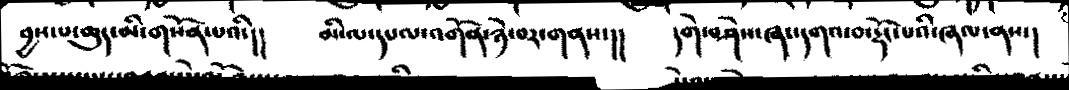བྱས་པ་ཆུད་མི་གསོན་པའི་།།  མི་ལ་དཔལ་འདོན་ཉེ་བར་གནས་།།   དགེ་བཤེས་ཞང་དགའ་བ་རྡོང་པའི་ཞལ་ནས་།
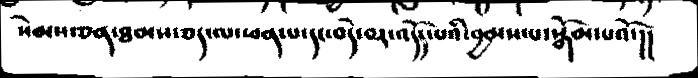སེམས་ཅན་ཐམས་ཅད་ལ་ཕན་པ་དང་བདེ་བར་འདོད་པའི་བྱམས་པ་སྒོམ་པའོ་།།
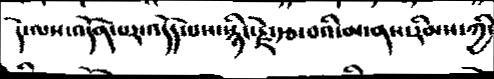དེ་ལས་འདོན་པར་འདོད་པས་སྙིང་རྗེ་རྩ་བའི་མ་ནས་རིམས་ཀྱི་
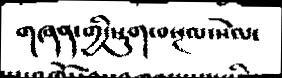གཞན་གྱི་སྡུག་བསྔལ་སེལ་
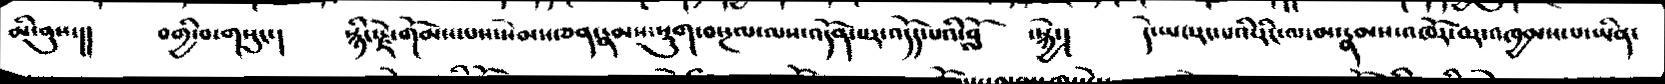མི་ནུས་།།  བགྱི་བ་གསུང་།   སྙིང་རྗེ་གོམས་པས་སེམས་ཅན་རྣམས་སྡུག་བསྔལ་ལས་འདོན་པར་འདོད་པའི་བློ   ་སྐྱེ་།   དེ་ཡང་རང་པའི་རིང་ལ་མ་རྣམས་འཁོར་བར་འཁྱམས་པ་ཡིན་
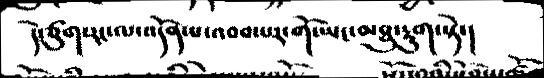དེ་ཙུག་རང་ལ་འདོན་པ་འབབ་པར་གོ་ཡང་མཐུ་རྱུག་སྟེ་།
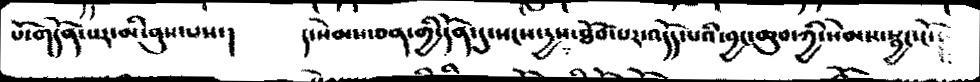པོ་གདོན་པར་མི་ནུས་པས་།       །་སེམས་ཅན་གྱི་དོན་དུ་སངས་དྱས་ཐོབ་པར་འདོད་པའི་བྱང་ཆུབ་ཀྱི་སེམས་སྦྱང་ངོ་
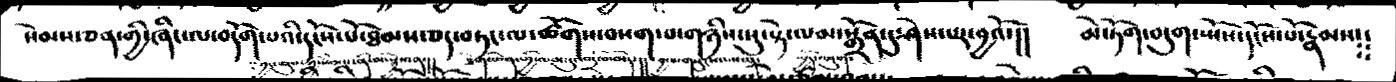སེམས་ཅན་གྱི་ཞིང་ལ་བདོག་པའི་དངོས་པོ་ཐམས་ཅད་བཏང་ལ་ཚོགས་བསག་པ་གཉིས་སུ་སྟེ་ལ་མ་སྒྲོན་དུ་ཤེས་པར་བྱའོ་།།  མེ་ཏོག་བདུག་སྤོས་དངོས་པོ་རྣམས༴༴
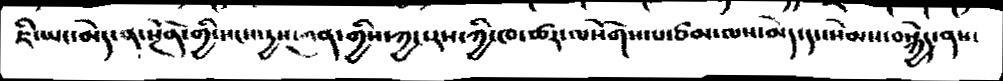ཇི་ཡང་མེད་སྔོན་གྱི་སངས་རྒྱས་ཀུན་གྱིས་ཀྱང་རས་ཀྱི་ཁ་ཚར་ལསོགས་པ་ཙམ་ལས་མེད་དང་སེམས་བསྐྱེད་ནས་
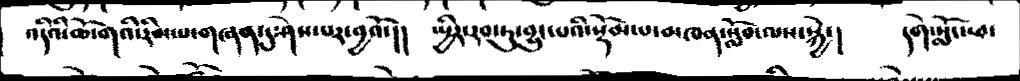འདིའི་ཆོ་གའི་རིམ་པ་གཞན་དུ་ཤེས་པར་བྱའོ་།།   སྤྱིར་རབ་ཏུ་བྱུང་པའི་སྡོམ་པ་མཁན་སློབ་ལས་སྐྱེ་། དགེ་སློང་ཕ་
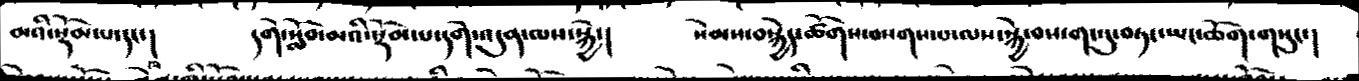མའི་སྡོམ་པ་དང་།   དགེ་སློབ་མའི་སྡོམ་པ་དགེ་འདུན་ལས་སྐྱེ་།  སེམས་བསྐྱེད་ཚོགས་བསག་པ་ལས་སྐྱེ་བས་གང་དུ་བཏང་ཡང་ཆོག་གསུང་།
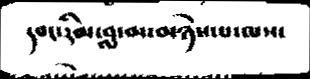དབང་རིམ་བླ་མ་མཉེས་པ་ལས་
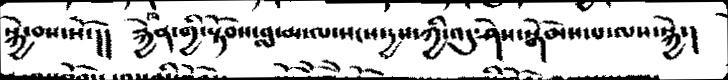སྐྱེ་བས་སོ་།།   རྐྱེན་གྱི་སྟོབས་བླ་མ་ལ་སངས་དྱས་ཀྱི་འདུ་ཤེས་སྒོམས་པ་ལས་སྐྱེ་།
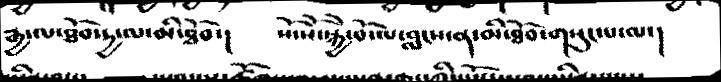རྒྱ་ལ་ཐོབ་དྱ་ལ་མི་ཐོབ་།      སོ་སོ་སྐྱེ་བོ་ལ་བླངས་ན་མི་ཐོབ་གསུང་པ་ལ་།
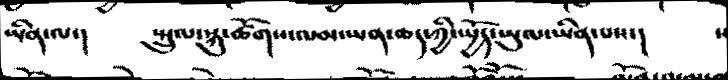ཡིན་ལ་།   སྤྲུལ་སྐུ་ཚོགས་ལམ་ཡན་ཆད་ཀྱི་སྤྱོད་ཡུལ་ཡིན་པས་།   ས
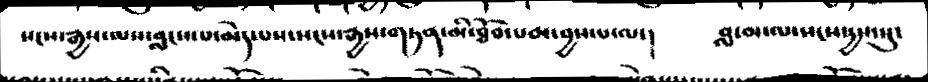སངས་རྒྱས་ལས་བླངས་པ་མེད་པས་སངས་རྒྱས་གཏན་མི་ཐོབ་པམ་བྱས་པ་ལ་།    བླ་མ་ལ་སངས་རྒྱས་སུ་
